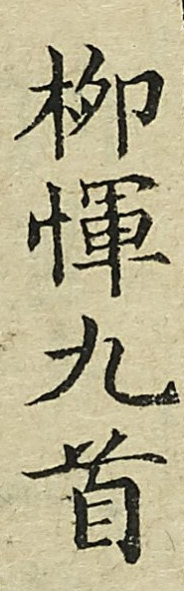柳惲九首
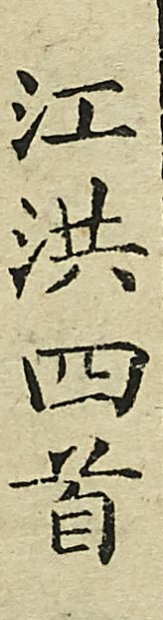江洪四首
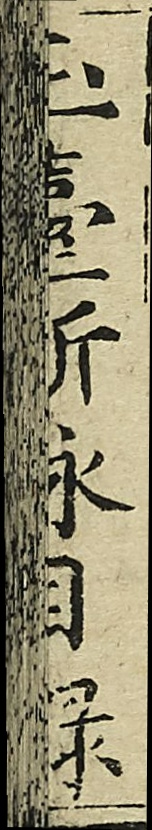玉臺新詠目錄
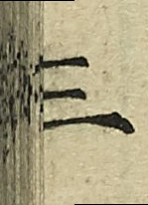三
